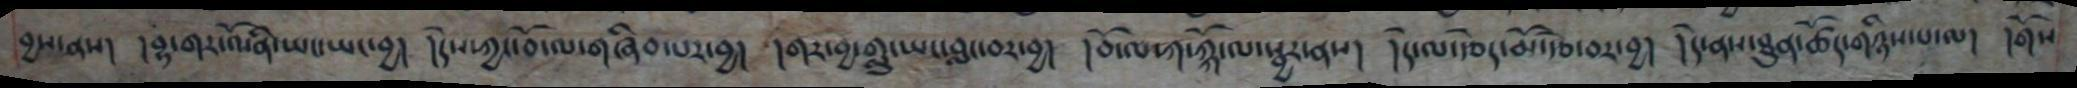བྱས་ནས། །བྷ་གར་འོ་ནི་ཡང་ཡང་བྱ། །དེས་ཀྱང་བོ་ལ་གཞིབ་པར་བྱ། །གར་བྱ་གླུ་ཡང་བླང་བར་བྱ། །བོ་ལ་ཀ་ཀྐོ་ལ་སྦྱར་ནས། །དེ་ལ་རྩེད་མོ་རྩེ་བར་བྱ། །དེ་ནས་ཐུན་ཚོད་གཉིས་པ་ལ། །གོས
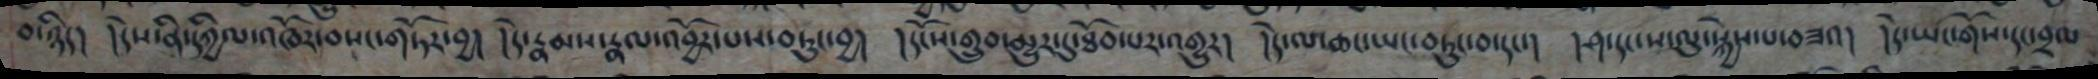བ་ཉིད། །དེས་ནི་དཀྱིལ་འཁོར་བསང་གཏོར་བྱ། །དེ་རྣམས་རྣལ་འབྱོར་པས་བཏུང་བྱ། །དངོས་གྲུབ་མྱུར་དུ་ཐོབ་པར་འགྱུར། །དེ་ལ་ཆང་ུང་བཏུང་བ་དང་། །ཤ་དང་ས་ལུ་སྐྱེས་པ་བཟའ། །དེ་ཡང་གོས་དང་བྲལ
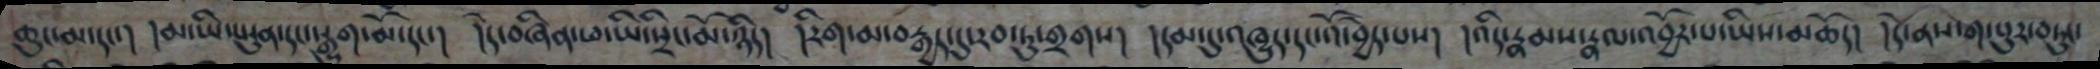ཆུང་མ་དང་། །མ་ཡི་ཡུན་དང་རྒྱུག་མོ་དང་། །དེ་བཞིན་ཕ་ཡི་སྲིང་མོ་ཉིད། །རིག་མ་བརྒྱད་དུ་རབ་ཏུ་གྲགས། །དམ་དུ་འཁྱུད་དང་འོ་བྱེད་པས། །འདི་རྣམས་རྣལ་འབྱོར་པ་ཡིས་མཆོད། །དེ་ནས་ག་པུར་བཏུང་
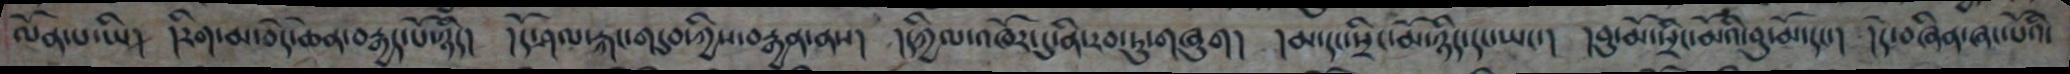ལོན་པ་ཡི། །རིག་མ་བདེ་ཆེན་བརྒྱད་པོ་ཉིད། །དོ་ཤལ་རྐང་གདུབ་ཀྱིས་བརྒྱན་ནས། །དཀྱིལ་འཁོར་དུ་ནི་རབ་ཏུ་གཞུག། །མ་དང་སྲིང་མོ་ཉིད་དང་ཡང་། །བུ་མོ་སྲིང་མོའི་བུ་མོ་དང་། །དེ་བཞིན་ཞང་པོའི་
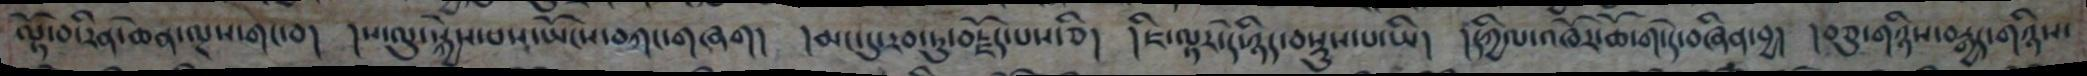ལྟོ་བ་རིན་ཆེན་ལྔས་གང་བ། །ས་ལུ་སྐྱེས་པས་ཡོངས་བཀང་གཞག། །མང་དུ་རབ་ཏུ་བརྗོད་པས་ཅི། །ཇི་ལྟར་དེ་ཉིད་བསྡུས་པ་ཡི། །དཀྱིལ་འཁོར་ཆོ་ག་དེ་བཞིན་བྱ། །བཅུ་གཉིས་བརྒྱད་གཉིས་
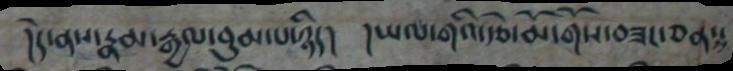།དེ་ནས་རྣམ་རྒྱལ་བུམ་པ་ཉིད། །ཡལ་གའི་རྩེ་མོ་གོས་བཟང་ཅན་
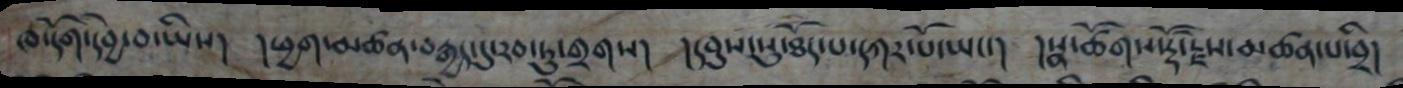ཁ་དོག་དབྱེ་བ་ཡིས། །ཕྱག་མཚན་བརྒྱད་དུ་རབ་ཏུ་གྲགས། །དབུས་སུ་ཐོད་པ་དཀར་པོ་ཡང་། །སྣ་ཚོགས་རྡོ་རྗེས་མཚན་པ་བྲི།
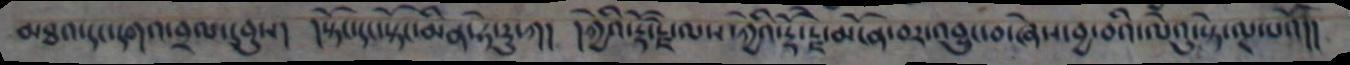མཐའ་དང་དགའ་བྲལ་དབུས། །སྟོང་དང་སྟོང་མིན་ཧེ་རུ་ཀ། །ཀྱེའི་རྡོ་རྗེ་ལས་ཀྱེའི་རྡོ་རྗེ་མངོན་བར་འབྱུང་བ་ཞེས་བྱ་བའི་ལེའུ་སྟེ་ལྔ་པའོ།།
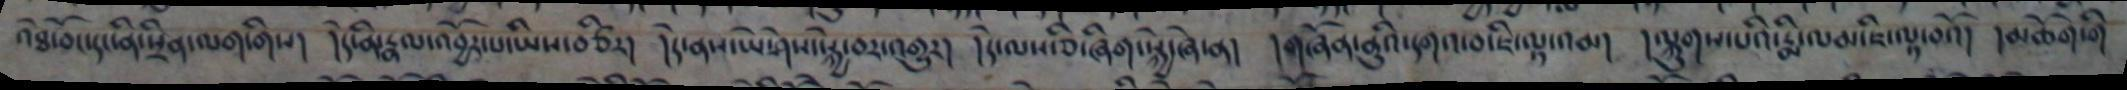འཐེ་བོང་དང་ནི་སྲིན་ལག་གིས། །དེ་ནི་རྣལ་འབྱོར་པ་ཡིས་བཙིར། །དེ་ནས་ཡེ་ཤེས་སྐྱེ་བར་འགྱུར། །དེ་ལས་ཅི་ཞིག་སྐྱེ་ཞེ་ན། །གཞོན་ནུའི་དགའ་བ་ཇི་ལྟ་འམ། །ལྐུགས་པའི་རྨི་ལམ་ཇི་ལྟ་བའོ། །མཆོག་གི
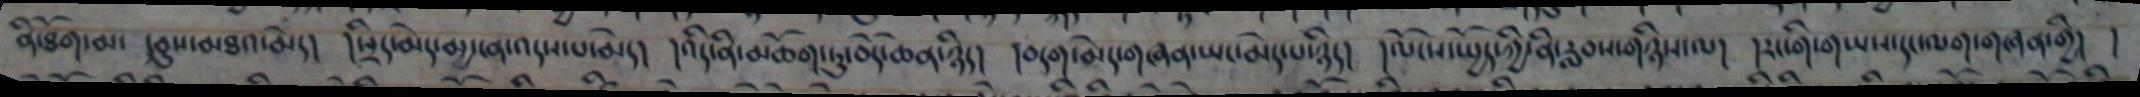ནི་ཐོག་མ་ དབུས་མཐའ་མེད། །སྲིད་མེད་མྱ་ངན་འདས་པ་མེད། །འདི་ནི་མཆོག་ཏུ་བདེ་ཆེན་ཉིད། །བདག་མེད་གཞན་ཡང་མེད་པ་ཉིད། །ལོངས་སྤྱོད་ཀྱི་ནི་རླབས་གཉིས་ལ། །རང་གི་གཡས་དང་ལག་གཞན་གྱི། །
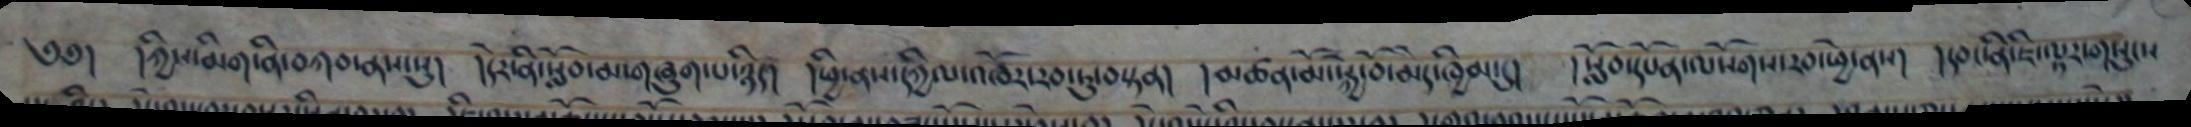༄༅། །ཀྱིས་མིག་ནི་བཀབ་ནས་སུ། །དེར་ནི་སློབ་མ་གཞུག་པ་ཉིད། །ཕྱི་ནས་དཀྱིལ་འཁོར་རབ་ཏུ་བསྟན། །མཚན་མོ་སྐྱེ་བོ་མེད་ཁྱིམ་དུ། །སློབ་དཔོན་ལསོགས་རབ་ཕྱེ་ནས། །དབང་ནི་ཇི་ལྟར་གསུངས
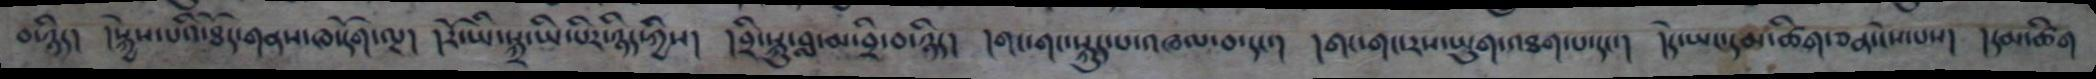བ་ཉིད། །སྐྱེས་པའི་ཐོད་གནས་ཁ་དོག་ལྔ། །རོ་ཡི་སྐྲ་ཡི་པིར་ཉིད་ཀྱིས། །བྲི་སྐུ་བླ་མ་བྲི་བ་ཉིད། །གང་གང་སྐུད་པ་འཁལ་བ་དང་། །གང་གང་རས་ཡུག་འཐག་པ་དང་། །དེ་ཡང་དམ་ཚིག་ཅན་ངེས་པས། །དམ་ཚིག
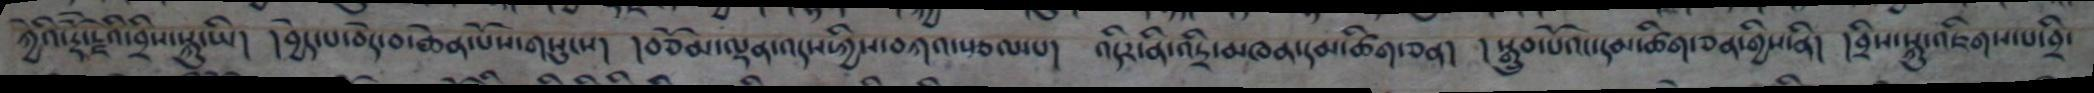ཀྱེའི་རྡོ་རྗེའི་བྲིས་སྐུ་ཡི། །བྱེད་པ་བདེ་བ་ཆེན་པོས་གསུངས། །བཅོམ་ལྡན་འདས་ཀྱིས་བཀའ་སྩལ་པ། །དིར་ནི་འདྲི་མཁན་དམ་ཚིག་ཅན། །སྒྲུབ་པོའང་དམ་ཚིག་ཅན་གྱིས་ནི། །བྲིས་སྐུ་འཇིགས་པ་བྲི་
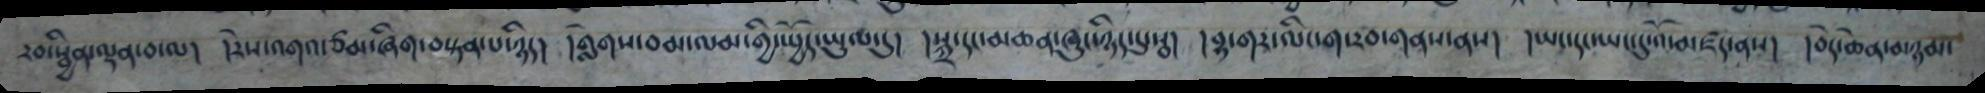རབ་སྦྱིན་ལྡན་བ་ལ། །རེས་འགའ་ཙམ་ཞིག་བསྟན་པ་ཉིད། །གླེགས་བམ་ལམ་གྱི་སྤྱོད་ཡུལ་དུ། །སྐྲ་དང་མཆན་ཞུང་ཉིད་དུ་སྦ། །བྷ་གར་ལིང་ག་རབ་གནས་ནས། །ཡང་དང་ཡང་དུ་འོ་མཛད་ནས། །བདེ་ཆེན་མཉམ་
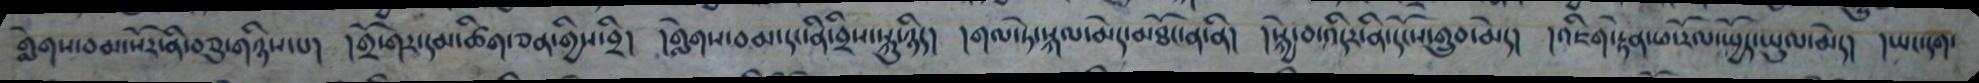གླེགས་བམ་སོར་ནི་བཅུ་གཉིས་པ། །གྲོ་གར་དམ་ཚིག་ཅན་གྱིས་བྲི། །གེགས་བམ་དང་ནི་བྲིས་སྐུ་ཉིད། །གལ་ཏེ་སྐལ་མེད་མཐོང་ན་ནི། །སྐྱེ་བ་འདིར་ནི་དངོས་གྲུབ་མེད། །འཇིག་རྟེན་ཕ་རོལ་སྤྱོད་ཡུལ་མེད། །ཡང་དག་
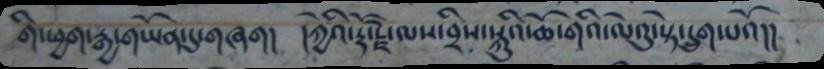གི་ཕྱག་རྒྱ་གཡོན་དུ་གཞག། །ཀྱེའི་རྡོ་རྗེ་ལས་བྲིས་སྐུའི་ཆོ་གའི་ལེའུ་སྟེ་དྲུག་པའོ།།
